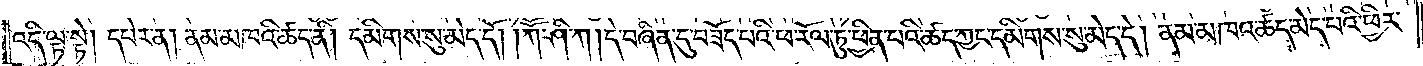འདི་ལྟ་སྟེ། དཔེར་ན། ནམ་མཁའི་ཚད་ནི། དམིགས་སུ་མེད་དོ། །ཀཽ་ཤི་ཀ། དེ་བཞིན་དུ་བཟོད་པའི་ཕ་རོལ་ཏུ་ཕྱིན་པའི་ཚད་ཀྱང་དམིགས་སུ་མེད་དེ། ནམ་མཁའ་ཚད་མེད་པའི་ཕྱིར་
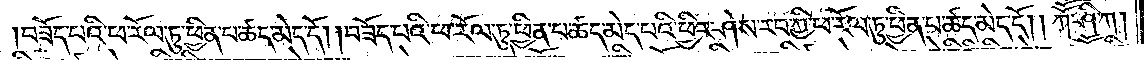བཟོད་པའི་ཕ་རོལ་ཏུ་ཕྱིན་པ་ཚད་མེད་དོ། །བཟོད་པའི་ཕ་རོལ་ཏུ་ཕྱིན་པ་ཚད་མེད་པའི་ཕྱིར་ཤེས་རབ་ཀྱི་ཕ་རོལ་ཏུ་ཕྱིན་པ་ཚད་མེད་དོ། །ཀཽ་ཤི་ཀ།
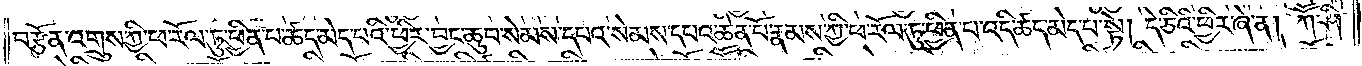བརྩོན་འགྲུས་ཀྱི་ཕ་རོལ་ཏུ་ཕྱིན་པ་ཚད་མེད་པའི་ཕྱིར་བྱུང་ཆུབ་སེམས་དཔའ་སེམས་དཔའ་ཆེན་པོ་རྣམས་ཀྱི་ཕ་རོལ་ཏུ་ཕྱིན་པ་འདི་ཚད་མེད་པ་སྟེ། དེ་ཅིའི་ཕྱིར་ཞེ་ན། ཀཽ་ཤི་
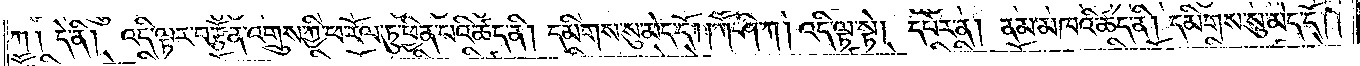ཀ། དེ་ནི། འདི་ལྟར་བརྩོན་འགྲུས་ཀྱི་ཕ་རོལ་ཏུ་ཕྱིན་པའི་ཚད་ནི། དམིགས་སུ་མེད་དོ། །ཀཽ་ཤི་ཀ། འདི་ལྟ་སྟེ། དཔེར་ན། ནམ་མཁའི་ཚད་ནི། དམིགས་སུ་མེད་དོ། །
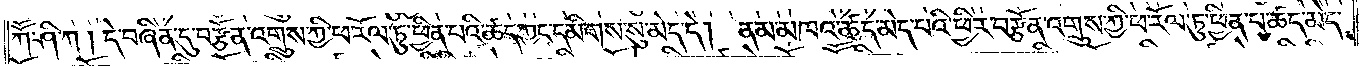ཀཽ་ཤི་ཀ །དེ་བཞིན་དུ་བརྩོན་འགྲུས་ཀྱི་ཕ་རོལ་ཏུ་ཕྱིན་པའི་ཚད་ཀྱང་དམིགས་སུ་མེད་དེ། ནམ་མཁའ་ཚད་མེད་པའི་ཕྱིར་བརྩོན་འགྲུས་ཀྱི་ཕ་རོལ་ཏུ་ཕྱིན་པ་ཚད་མེད་
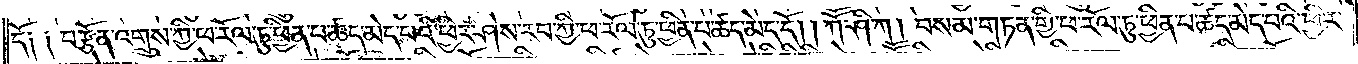དོ༑ ༑བརྩོན་འགྲུས་ཀྱི་ཕ་རོལ་ཏུ་ཕྱིན་པ་ཚད་མེད་པའི་ཕྱིར་ཤེས་རབ་ཀྱི་ཕ་རོལ་ཏུ་ཕྱིན་པ་ཚད་མེད་དོ། །ཀཽ་ཤི་ཀ། བསམ་གཏན་གྱི་ཕ་རོལ་ཏུ་ཕྱིན་པ་ཚད་མེད་པའི་ཕྱིར་
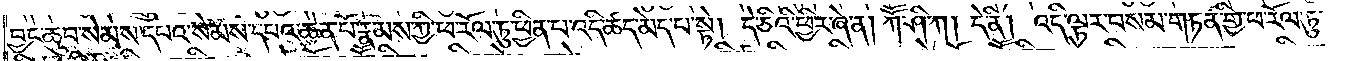བྱང་ཆུབ་སེམས་དཔའ་སེམས་དཔའ་ཆེན་པོ་རྣམས་ཀྱི་ཕ་རོལ་ཏུ་ཕྱིན་པ་འདི་ཚད་མེད་པ་སྟེ། དེ་ཅིའི་ཕྱིར་ཞེ་ན། ཀཽ་ཤི་ཀ། དེ་ནི། འདི་ལྟར་བསམ་གཏན་གྱི་ཕ་རོལ་ཏུ་
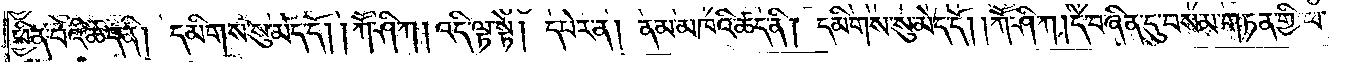ཕྱིན་པའི་ཚད་ནི། དམིགས་སུ་མེད་དོ། །ཀཽ་ཤི་ཀ། འདི་ལྟ་སྟེ། དཔེར་ན། ནམ་མཁའི་ཚད་ནི། དམིགས་སུ་མེད་དོ། །ཀཽ་ཤི་ཀ། དེ་བཞིན་དུ་བསམ་གཏན་གྱི་ཕ་
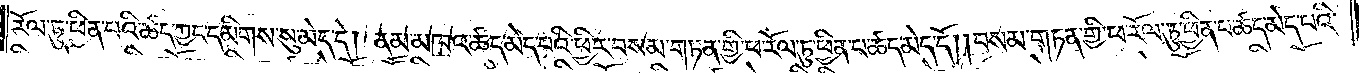རོལ་ཏུ་ཕྱིན་པའི་ཚད་ཀྱང་དམིགས་སུ་མེད་དེ། ནམ་མཁའ་ཚད་མེད་པའི་ཕྱིར་བསམ་གཏན་གྱི་ཕ་རོལ་ཏུ་ཕྱིན་པ་ཚད་མེད་དོ། །བསམ་གཏན་གྱི་ཕ་རོལ་ཏུ་ཕྱིན་པ་ཚད་མེད་པའི་
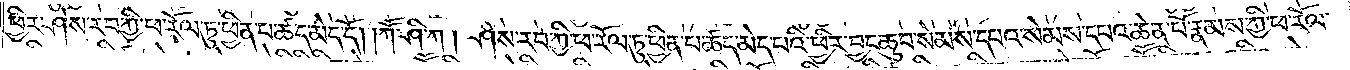ཕྱིར་ཤེས་རབ་ཀྱི་ཕ་རོལ་ཏུ་ཕྱིན་པ་ཚད་མེད་དོ། །ཀཽ་ཤི་ཀ། ཤེས་རབ་ཀྱི་ཕ་རོལ་ཏུ་ཕྱིན་པ་ཚད་མེད་པའི་ཕྱིར་བྱང་ཆུབ་སེམས་དཔའ་སེམས་དཔའ་ཆེན་པོ་རྣམས་ཀྱི་ཕ་རོལ་
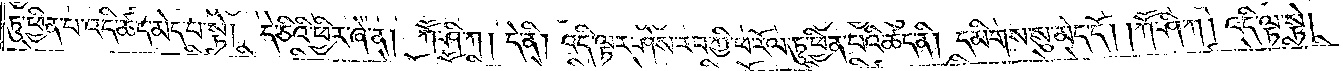ཏུ་ཕྱིན་པ་འདི་ཚད་མེད་པ་སྟེ། དེ་ཅིའི་ཕྱིར་ཞེ་ན། ཀཽ་ཤི་ཀ། དེ་ནི། འདི་ལྟར་ཤེས་རབ་ཀྱི་ཕ་རོལ་ཏུ་ཕྱིན་པའི་ཚད་ནི། དམིགས་སུ་མེད་དོ། །ཀཽ་ཤི་ཀ། འདི་ལྟ་སྟེ།
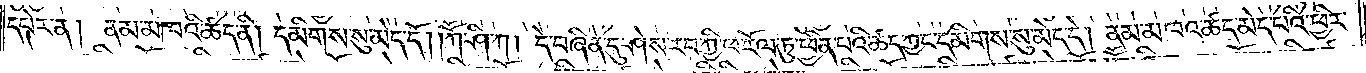དཔེར་ན། ནམ་མཁའི་ཚད་ནི། དམིགས་སུ་མེད་དོ། །ཀཽ་ཤི་ཀ། དེ་བཞིན་དུ་ཤེས་རབ་ཀྱི་ཕ་རོལ་ཏུ་ཕྱིན་པའི་ཚད་དམིགས་སུ་མེད་དེ། ནམ་མཁའ་ཚད་མེད་པའི་ཕྱིར་
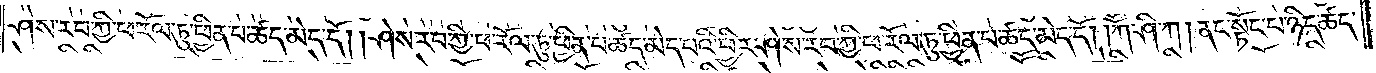ཤེས་རབ་ཀྱི་ཕ་རོལ་ཏུ་ཕྱིན་པ་ཚད་མེད་དོ། །ཤེས་རབ་ཀྱི་ཕ་རོལ་ཏུ་ཕྱིན་པ་ཚད་མེད་པའི་ཕྱིར་ཤེས་རབ་ཀྱི་ཕ་རོལ་ཏུ་ཕྱིན་པ་ཚད་མེད་དོ། །ཀཽ་ཤི་ཀ། ནང་སྟོང་པ་ཉིད་ཚད་
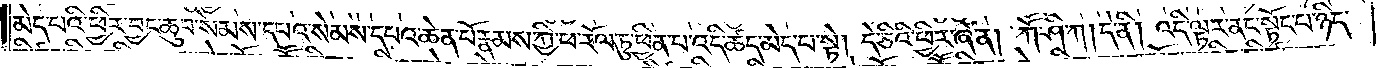མེད་པའི་ཕྱིར་བྱང་ཆུབ་སེམས་དཔའ་སེམས་དཔའ་ཆེན་པོ་རྣམས་ཀྱི་ཕ་རོལ་ཏུ་ཕྱིན་པ་འདི་ཚད་མེད་པ་སྟེ། དེ་ཅིའི་ཕྱིར་ཞེ་ན། ཀཽ་ཤི་ཀ། དེ་ནི། འདི་ལྟར་ནང་སྟོང་པ་ཉིད་
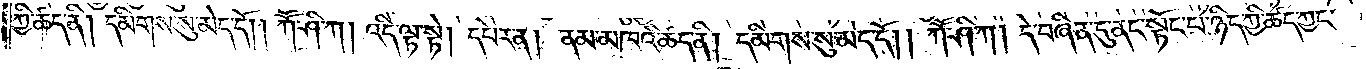ཀྱི་ཚད་ནི། དམིགས་སུ་མེད་དོ། །ཀཽ་ཤི་ཀ། འདི་ལྟ་སྟེ། དཔེར་ན། ནམ་མཁའི་ཚད་ནི། དམིགས་སུ་མེད་དོ། །ཀཽ་ཤི་ཀ། དེ་བཞིན་དུ་ནང་སྟོང་པ་ཉིད་ཀྱི་ཚད་ཀྱང་
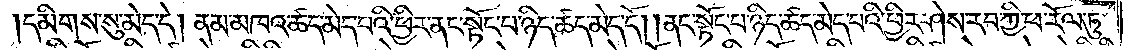དམིགས་སུ་མེད་དེ། ནམ་མཁའ་ཚད་མེད་པའི་ཕྱིར་ནང་སྟོང་པ་ཉིད་ཚད་མེད་དོ། །ནང་སྟོང་པ་ཉིད་ཚད་མེད་པའི་ཕྱིར་ཤེས་རབ་ཀྱི་ཕ་རོལ་ཏུ་
